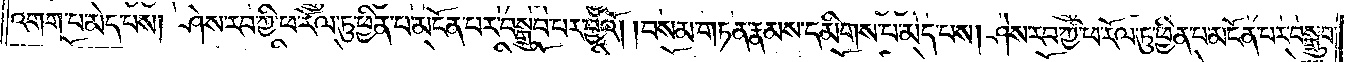འགག་པ་མེད་པས། ཤེས་རབ་ཀྱི་ཕ་རོལ་ཏུ་ཕྱིན་པ་མངོན་པར་བསྒྲུབ་པར་བྱའོ། །བསམ་གཏན་རྣམས་དམིགས་པ་མེད་པས། ཤེས་རབ་ཀྱི་ཕ་རོལ་ཏུ་ཕྱིན་པ་མངོན་པར་བསྒྲུབ་
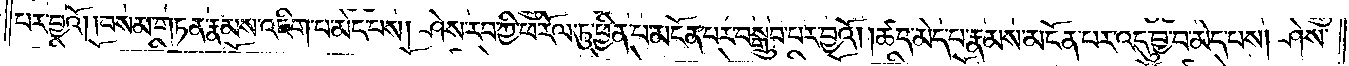པར་བྱའོ། །བསམ་གཏན་རྣམས་འཇིག་པ་མེད་པས། ཤེས་རབ་ཀྱི་ཕ་རོལ་ཏུ་ཕྱིན་པ་མངོན་པར་བསྒྲུབ་པར་བྱའོ། །ཚད་མེད་པ་རྣམས་མངོན་པར་འདུ་བྱ་བ་མེད་པས། ཤེས་
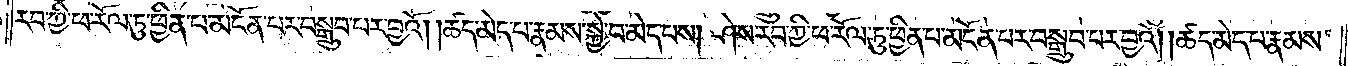རབ་ཀྱི་ཕ་རོལ་ཏུ་ཕྱིན་པ་མངོན་པར་བསྒྲུབ་པར་བྱའོ། །ཚད་མེད་པ་རྣམས་སྐྱེ་བ་མེད་པས། ཤེས་རབ་ཀྱི་ཕ་རོལ་ཏུ་ཕྱིན་པ་མངོན་པར་བསྒྲུབ་པར་བྱའོ། །ཚད་མེད་པ་རྣམས་
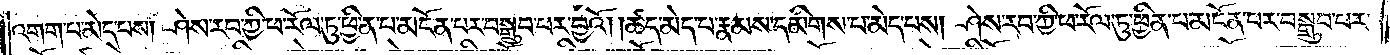འགག་པ་མེད་པས། ཤེས་རབ་ཀྱི་ཕ་རོལ་ཏུ་ཕྱིན་པ་མངོན་པར་བསྒྲུབ་པར་བྱའོ། །ཚད་མེད་པ་རྣམས་དམིགས་པ་མེད་པས། ཤེས་རབ་ཀྱི་ཕ་རོལ་ཏུ་ཕྱིན་པ་མངོན་པར་བསྒྲུབ་པར་
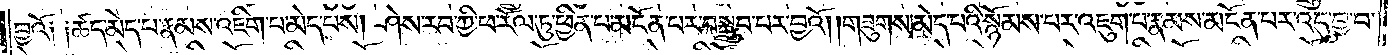བྱའོ༑ ༑ཚད་མེད་པ་རྣམས་འཇིག་པ་མེད་པས། ཤེས་རབ་ཀྱི་ཕ་རོལ་ཏུ་ཕྱིན་པ་མངོན་པར་བསྒྲུབ་པར་བྱའོ། །གཟུགས་མེད་པའི་སྙོམས་པར་འཇུག་པ་རྣམས་མངོན་པར་འདུ་བྱ་བ་
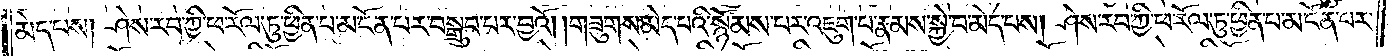མེད་པས། ཤེས་རབ་ཀྱི་ཕ་རོལ་ཏུ་ཕྱིན་པ་མངོན་པར་བསྒྲུབ་པར་བྱའོ། །གཟུགས་མེད་པའི་སྙོམས་པར་འཇུག་པ་རྣམས་སྐྱེ་བ་མེད་པས། ཤེས་རབ་ཀྱི་ཕ་རོལ་ཏུ་ཕྱིན་པ་མངོན་པར་
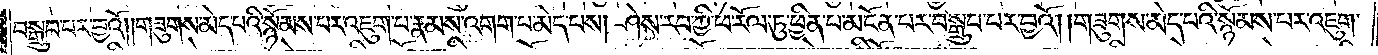བསྒྲུབ་པར་བྱའོ། །གཟུགས་མེད་པའི་སྙོམས་པར་འཇུག་པ་རྣམས་འགག་པ་མེད་པས། ཤེས་རབ་ཀྱི་ཕ་རོལ་ཏུ་ཕྱིན་པ་མངོན་པར་བསྒྲུབ་པར་བྱའོ། །གཟུགས་མེད་པའི་སྙོམས་པར་འཇུག་
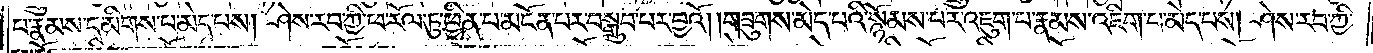པ་རྣམས་དམིགས་པ་མེད་པས། ཤེས་རབ་ཀྱི་ཕ་རོལ་ཏུ་ཕྱིན་པ་མངོན་པར་བསྒྲུབ་པར་བྱའོ། །གཟུགས་མེད་པའི་སྙོམས་པར་འཇུག་པ་རྣམས་འཇིག་པ་མེད་པས། ཤེས་རབ་ཀྱི་
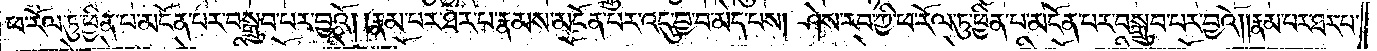ཕ་རོལ་ཏུ་ཕྱིན་པ་མངོན་པར་བསྒྲུབ་པར་བྱའོ། །རྣམ་པར་ཐར་པ་རྣམས་མངོན་པར་འདུ་བྱ་བ་མེད་པས། ཤེས་རབ་ཀྱི་ཕ་རོལ་ཏུ་ཕྱིན་པ་མངོན་པར་བསྒྲུབ་པར་བྱའོ། །རྣམ་པར་ཐར་པ་
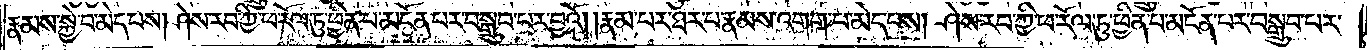རྣམས་སྐྱེ་བ་མེད་པས། ཤེས་རབ་ཀྱི་ཕ་རོལ་ཏུ་ཕྱིན་པ་མངོན་པར་བསྒྲུབ་པར་བྱའོ། །རྣམ་པར་ཐར་པ་རྣམས་འགག་པ་མེད་པས། ཤེས་རབ་ཀྱི་ཕ་རོལ་ཏུ་ཕྱིན་པ་མངོན་པར་བསྒྲུབ་པར་
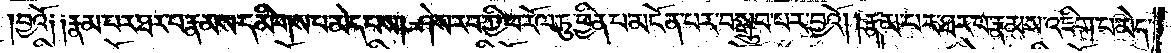བྱའོ༑ ༑རྣམ་པར་ཐར་པ་རྣམས་དམིགས་པ་མེད་པས། ཤེས་རབ་ཀྱི་ཕ་རོལ་ཏུ་ཕྱིན་པ་མངོན་པར་བསྒྲུབ་པར་བྱའོ། །རྣམ་པར་ཐར་པ་རྣམས་འཇིག་པ་མེད་
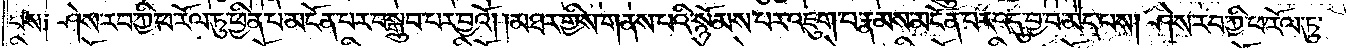པས༑ ཤེས་རབ་ཀྱི་ཕ་རོལ་ཏུ་ཕྱིན་པ་མངོན་པར་བསྒྲུབ་པར་བྱའོ། །མཐར་གྱིས་གནས་པའི་སྙོམས་པར་འཇུག་པ་རྣམས་མངོན་པར་འདུ་བྱ་བ་མེད་པས། ཤེས་རབ་ཀྱི་ཕ་རོལ་ཏུ་
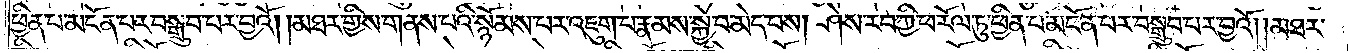ཕྱིན་པ་མངོན་པར་བསྒྲུབ་པར་བྱའོ། །མཐར་གྱིས་གནས་པའི་སྙོམས་པར་འཇུག་པ་རྣམས་སྐྱེ་བ་མེད་པས། ཤེས་རབ་ཀྱི་ཕ་རོལ་ཏུ་ཕྱིན་པ་མངོན་པར་བསྒྲུབ་པར་བྱའོ། །མཐར་
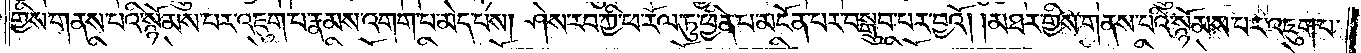གྱིས་གནས་པའི་སྙོམས་པར་འཇུག་པ་རྣམས་འགག་པ་མེད་པས། ཤེས་རབ་ཀྱི་ཕ་རོལ་ཏུ་ཕྱིན་པ་མངོན་པར་བསྒྲུབ་པར་བྱའོ། །མཐར་གྱིས་གནས་པའི་སྙོམས་པར་འཇུག་པ་
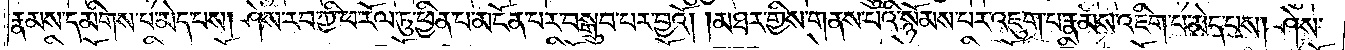རྣམས་དམིགས་པ་མེད་པས། ཤེས་རབ་ཀྱི་ཕ་རོལ་ཏུ་ཕྱིན་པ་མངོན་པར་བསྒྲུབ་པར་བྱའོ། །མཐར་གྱིས་གནས་པའི་སྙོམས་པར་འཇུག་པ་རྣམས་འཇིག་པ་མེད་པས། ཤེས་
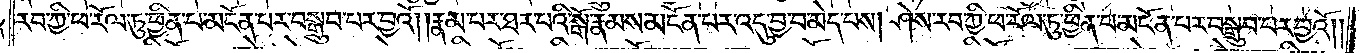རབ་ཀྱི་ཕ་རོལ་ཏུ་ཕྱིན་པ་མངོན་པར་བསྒྲུབ་པར་བྱའོ། །རྣམ་པར་ཐར་པའི་སྒོ་རྣམས་མངོན་པར་འདུ་བྱ་བ་མེད་པས། ཤེས་རབ་ཀྱི་ཕ་རོལ་ཏུ་ཕྱིན་པ་མངོན་པར་བསྒྲུབ་པར་བྱའོ། །
